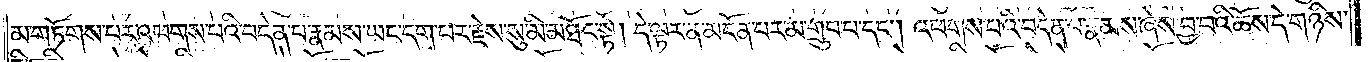མ་གཏོགས་པར་འཕགས་པའི་བདེན་པ་རྣམས་ཡང་དག་པར་རྗེས་སུ་མི་མཐོང་སྟེ། དེ་ལྟར་ན་མངོན་པར་མ་གྲུབ་པ་དང༌། འཕགས་པའི་བདེན་པ་རྣམས་ཞེས་བྱ་བའི་ཆོས་དེ་གཉིས་
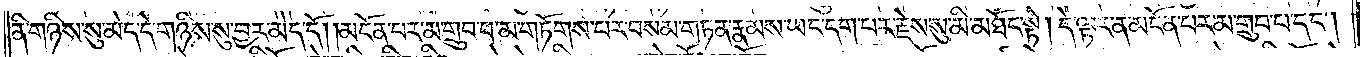ནི་གཉིས་སུ་མེད་དེ་གཉིས་སུ་བྱར་མེད་དོ། །མངོན་པར་མ་གྲུབ་པ་མ་གཏོགས་པར་བསམ་གཏན་རྣམས་ཡང་དག་པར་རྗེས་སུ་མི་མཐོང་སྟེ། དེ་ལྟར་ན་མངོན་པར་མ་གྲུབ་པ་དང༌།
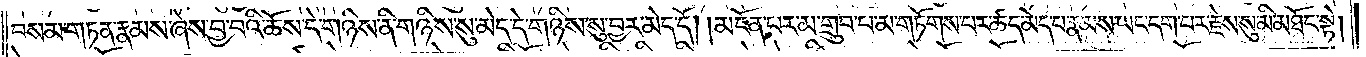བསམ་གཏན་རྣམས་ཞེས་བྱ་བའི་ཆོས་དེ་གཉིས་ནི་གཉིས་སུ་མེད་དེ་གཉིས་སུ་བྱར་མེད་དོ། །མངོན་པར་མ་གྲུབ་པ་མ་གཏོགས་པར་ཚད་མེད་པ་རྣམས་ཡང་དག་པར་རྗེས་སུ་མི་མཐོང་སྟེ།
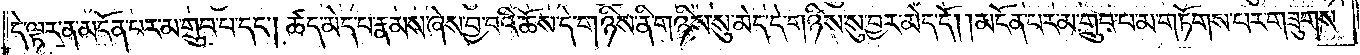དེ་ལྟར་ན་མངོན་པར་མ་གྲུབ་པ་དང༌། ཚད་མེད་པ་རྣམས་ཞེས་བྱ་བའི་ཆོས་དེ་གཉིས་ནི་གཉིས་སུ་མེད་དེ་གཉིས་སུ་བྱར་མེད་དོ། །མངོན་བར་མ་གྲུབ་པ་མ་གཏོགས་པར་གཟུགས་
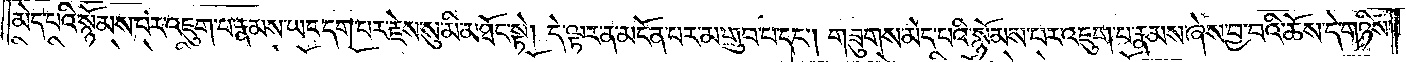མེད་པའི་སྙོམས་པར་འཇུག་པ་རྣམས་ཡང་དག་པར་རྗེས་སུ་མི་མཐོང་སྟེ། དེ་ལྟར་ན་མངོན་པར་མ་གྲུབ་པ་དང༌། གཟུགས་མེད་པའི་སྙོམས་པར་འཇུག་པ་རྣམས་ཞེས་བྱ་བའི་ཆོས་དེ་གཉིས་
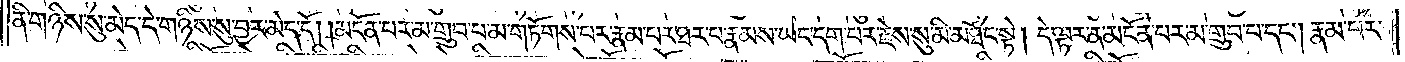ནི་གཉིས་སུ་མེད་དེ་གཉིས་སུ་བྱར་མེད་དོ། །མངོན་པར་མ་གྲུབ་པ་མ་གཏོགས་པར་རྣམ་པར་ཐར་པ་རྣམས་ཡང་དག་པར་རྗེས་སུ་མི་མཐོང་སྟེ། དེ་ལྟར་ན་མངོན་པར་མ་གྲུབ་པ་དང༌། རྣམ་པར་
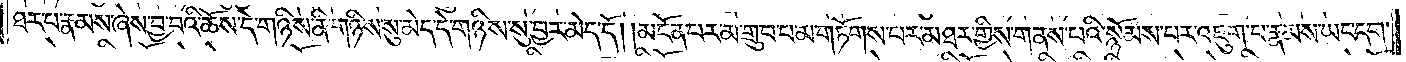ཐར་པ་རྣམས་ཞེས་བྱ་བའི་ཆོས་དེ་གཉིས་ནི་གཉིས་སུ་མེད་དེ་གཉིས་སུ་བྱར་མེད་དོ། །མངོན་པར་མ་གྲུབ་པ་མ་གཏོགས་པར་མཐར་གྱིས་གནས་པའི་སྙོམས་པར་འཇུག་པ་རྣམས་ཡང་དག་
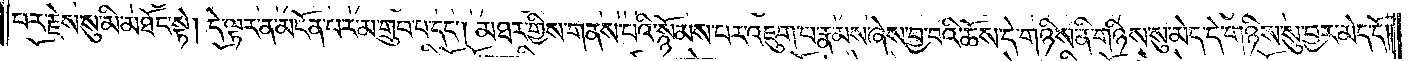པར་རྗེས་སུ་མི་མཐོང་སྟེ། དེ་ལྟར་ན་མངོན་པར་མ་གྲུབ་པ་དང༌། མཐར་གྱིས་གནས་པའི་སྙོམས་པར་འཇུག་པ་རྣམས་ཞེས་བྱ་བའི་ཆོས་དེ་གཉིས་ནི་གཉིས་སུ་མེད་དེ་གཉིས་སུ་བྱར་མེད་དོ། །
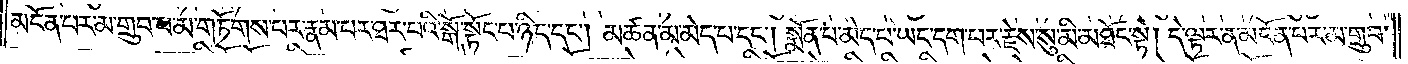མངོན་པར་མ་གྲུབ་པ་མ་གཏོགས་པར་རྣམ་པར་ཐར་པའི་སྒོ་སྟོང་པ་ཉིད་དང༌། མཚན་མ་མེད་པ་དང༌། སྨོན་པ་མེད་པ་ཡང་དག་པར་རྗེས་སུ་མི་མཐོང་སྟེ། དེ་ལྟར་ན་མངོན་པར་མ་གྲུབ་
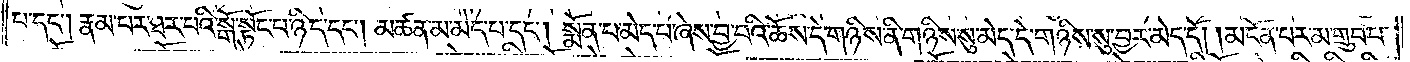པ་དང༌། རྣམ་པར་ཐར་པའི་སྒོ་སྟོང་པ་ཉིད་དང༌། མཚན་མ་མེད་པ་དང༌། སྨོན་པ་མེད་པ་ཞེས་བྱ་བའི་ཆོས་དེ་གཉིས་ནི་གཉིས་སུ་མེད་དེ་གཉིས་སུ་བྱར་མེད་དོ། །མངོན་པར་མ་གྲུབ་པ་
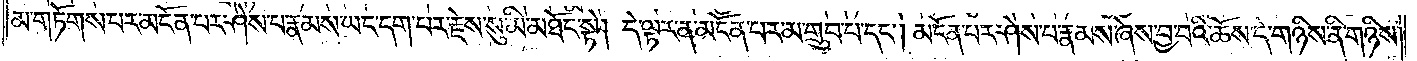མ་གཏོགས་པར་མངོན་པར་ཤེས་པ་རྣམས་ཡང་དག་པར་རྗེས་སུ་མི་མཐོང་སྟེ། དེ་ལྟར་ན་མངོན་པར་མ་གྲུབ་པ་དང༌། མངོན་པར་ཤེས་པ་རྣམས་ཞེས་བྱ་བའི་ཆོས་དེ་གཉིས་ནི་གཉིས་
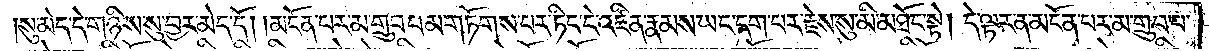སུ་མེད་དེ་གཉིས་སུ་བྱར་མེད་དོ། །མངོན་པར་མ་གྲུབ་པ་མ་གཏོགས་པར་ཏིང་ངེ་འཛིན་རྣམས་ཡང་དག་པར་རྗེས་སུ་མི་མཐོང་སྟེ། དེ་ལྟར་ན་མངོན་པར་མ་གྲུབ་པ་
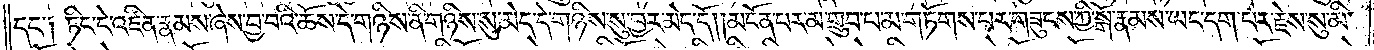དང༌། ཏིང་ངེ་འཛིན་རྣམས་ཞེས་བྱ་བའི་ཆོས་དེ་གཉིས་ནི་གཉིས་སུ་མེད་དེ་གཉིས་སུ་བྱར་མེད་དོ། །མངོན་པར་མ་གྲུབ་པ་མ་གཏོགས་པར་གཟུངས་ཀྱི་སྒོ་རྣམས་ཡང་དག་པར་རྗེས་སུ་མི་
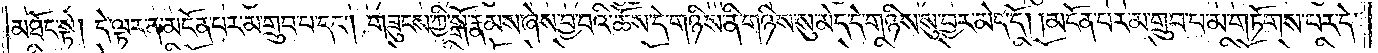མཐོང་སྟེ། དེ་ལྟར་ན་མངོན་པར་མ་གྲུབ་པ་དང༌། གཟུངས་ཀྱི་སྒོ་རྣམས་ཞེས་བྱ་བའི་ཆོས་དེ་གཉིས་ནི་གཉིས་སུ་མེད་དེ་གཉིས་སུ་བྱར་མེད་དོ། །མངོན་པར་མ་གྲུབ་པ་མ་གཏོགས་པར་དེ་
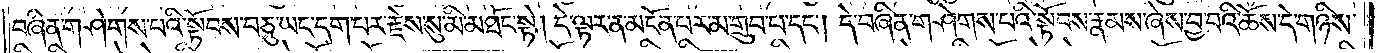བཞིན་གཤེགས་པའི་སྟོབས་བཅུ་ཡང་དག་པར་རྗེས་སུ་མི་མཐོང་སྟེ། དེ་ལྟར་ན་མངོན་པར་མ་གྲུབ་པ་དང༌། དེ་བཞིན་གཤེགས་པའི་སྟོབས་རྣམས་ཞེས་བྱ་བའི་ཆོས་དེ་གཉིས་
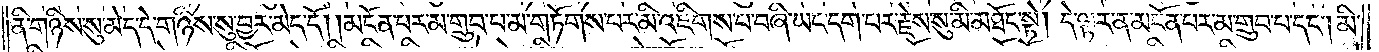ནི་གཉིས་སུ་མེད་དེ་གཉིས་སུ་བྱར་མེད་དོ། །མངོན་པར་མ་གྲུབ་པ་མ་གཏོགས་པར་མི་འཇིགས་པ་བཞི་ཡང་དག་པར་རྗེས་སུ་མི་མཐོང་སྟེ། དེ་ལྟར་ན་མངོན་པར་མ་གྲུབ་པ་དང༌། མི་
